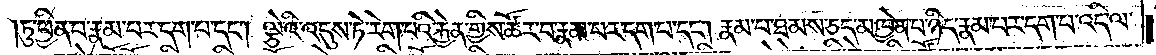ཏུ་ཕྱིན་པ་རྣམ་པར་དག་པ་དང༌། ལྕེའི་འདུས་ཏེ་རེག་པའི་རྐྱེན་གྱིས་ཚོར་བ་རྣམ་པར་དག་པ་དང༌། རྣམ་པ་ཐམས་ཅད་མཁྱེན་པ་ཉིད་རྣམ་པར་དག་པ་འདི་ལ་
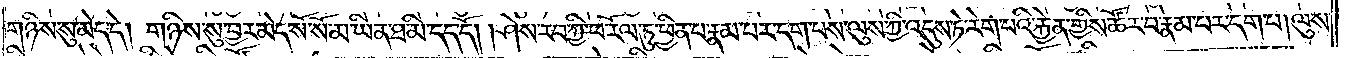གཉིས་སུ་མེད་དེ། གཉིས་སུ་བྱར་མེད་སོ་སོ་མ་ཡིན་ཐ་མི་དད་དོ། །ཤེས་རབ་ཀྱི་ཕ་རོལ་ཏུ་ཕྱིན་པ་རྣམ་པར་དག་པས་ལུས་ཀྱི་འདུས་ཏེ་རེག་པའི་རྐྱེན་གྱིས་ཚོར་བ་རྣམ་པར་དག་པ། ལུས་
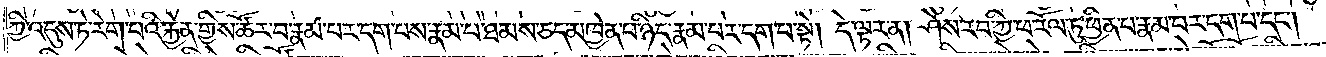ཀྱི་འདུས་ཏེ་རེག་པའི་རྐྱེན་གྱིས་ཚོར་བ་རྣམ་པར་དག་པས་རྣམ་པ་ཐམས་ཅད་མཁྱེན་པ་ཉིད་རྣམ་པར་དག་པ་སྟེ། དེ་ལྟར་ན། ཤེས་རབ་ཀྱི་ཕ་རོལ་ཏུ་ཕྱིན་པ་རྣམ་པར་དག་པ་དང༌།
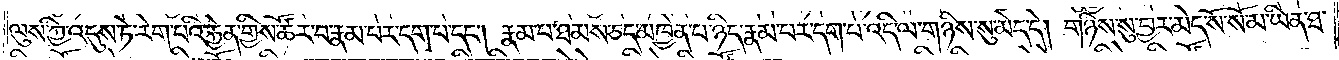ཀྱི་འདུས་ཏེ་རེག་པའི་རྐྱེན་གྱིས་ཚོར་བ་རྣམ་པར་དག་པ་དང༌། རྣམ་པ་ཐམས་ཅད་མཁྱེན་པ་ཉིད་རྣམ་པར་དག་པ་འདི་ལ་གཉིས་སུ་མེད་དེ། གཉིས་སུ་བྱར་མེད་སོ་སོ་མ་ཡིན་ཐ་
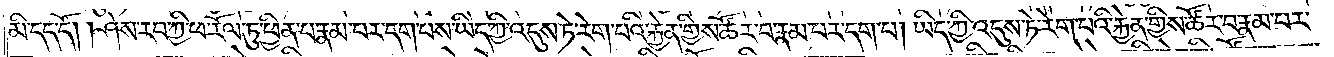མི་དད་དོ། །ཤེས་རབ་ཀྱི་ཕ་རོལ་ཏུ་ཕྱིན་པ་རྣམ་པར་དག་པས་ཡིད་ཀྱི་འདུས་ཏེ་རེག་པའི་རྐྱེན་གྱིས་ཚོར་བ་རྣམ་པར་དག་པ། ཡིད་ཀྱི་འདུས་ཏེ་རེག་པའི་རྐྱེན་གྱིས་ཚོར་བ་རྣམ་པར་
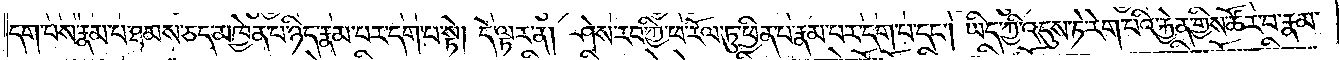དག་པས་རྣམ་པ་ཐམས་ཅད་མཁྱེན་པ་ཉིད་རྣམ་པར་དག་པ་སྟེ། དེ་ལྟར་ན། ཤེས་རབ་ཀྱི་ཕ་རོལ་ཏུ་ཕྱིན་པ་རྣམ་པར་དག་པ་དང༌། ཡིད་ཀྱི་འདུས་ཏེ་རེག་པའི་རྐྱེན་གྱིས་ཚོར་བ་རྣམ་
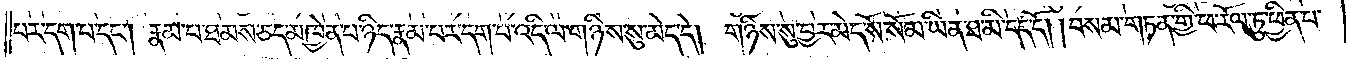པར་དག་པ་དང༌། རྣམ་པ་ཐམས་ཅད་མཁྱེན་པ་ཉིད་རྣམ་པར་དག་པ་འདི་ལ་གཉིས་སུ་མེད་དེ། གཉིས་སུ་བྱར་མེད་སོ་སོ་མ་ཡིན་ཐ་མི་དད་དོ། །བསམ་གཏན་གྱི་ཕ་རོལ་ཏུ་ཕྱིན་པ་
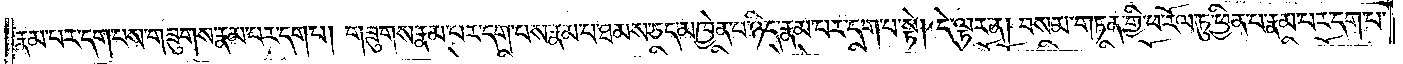རྣམ་པར་དག་པས་གཟུགས་རྣམ་པར་དག་པ། གཟུགས་རྣམ་པར་དག་པས་རྣམ་པ་ཐམས་ཅད་མཁྱེན་པ་ཉིད་རྣམ་པར་དག་པ་སྟེ། དེ་ལྟར་ན། བསམ་གཏན་གྱི་ཕ་རོལ་ཏུ་ཕྱིན་པ་རྣམ་པར་དག་པ་
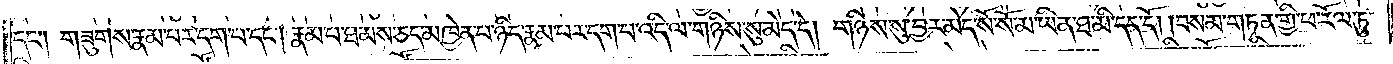དང༌། གཟུགས་རྣམ་པར་དག་པ་དང༌། རྣམ་པ་ཐམས་ཅད་མཁྱེན་པ་ཉིད་རྣམ་པར་དག་པ་འདི་ལ་གཉིས་སུ་མེད་དེ། གཉིས་སུ་བྱར་མེད་སོ་སོ་མ་ཡིན་ཐ་མི་དད་དོ། །བསམ་གཏན་གྱི་ཕ་རོལ་ཏུ་
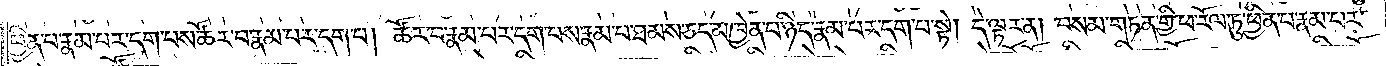ཕྱིན་པ་རྣམ་པར་དག་པས་ཚོར་བ་རྣམ་པར་དག་པ། ཚོར་བ་རྣམ་པར་དག་པས་རྣམ་པ་ཐམས་ཅད་མཁྱེན་པ་ཉིད་རྣམ་པར་དག་པ་སྟེ། དེ་ལྟར་ན། བསམ་གཏན་གྱི་ཕ་རོལ་ཏུ་ཕྱིན་པ་རྣམ་པར་
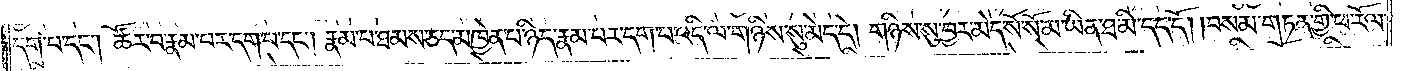དག་པ་དང༌། ཚོར་བ་རྣམ་པར་དག་པ་དང༌། རྣམ་པ་ཐམས་ཅད་མཁྱེན་པ་ཉིད་རྣམ་པར་དག་པ་འདི་ལ་གཉིས་སུ་མེད་དེ། གཉིས་སུ་བྱར་མེད་སོ་སོ་མ་ཡིན་ཐ་མི་དད་དོ། །བསམ་གཏན་གྱི་ཕ་རོལ་
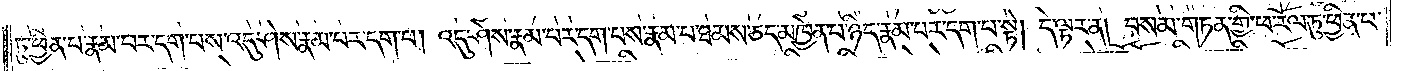ཏུ་ཕྱིན་པ་རྣམ་པར་དག་པས་འདུ་ཤེས་རྣམ་པར་དག་པ། འདུ་ཤེས་རྣམ་པར་དག་པས་རྣམ་པ་ཐམས་ཅད་མཁྱེན་པ་ཉིད་རྣམ་པར་དག་པ་སྟེ། དེ་ལྟར་ན། བསམ་གཏན་གྱི་ཕ་རོལ་ཏུ་ཕྱིན་པ་
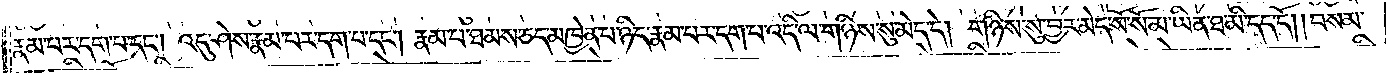རྣམ་པར་དག་པ་དང༌། འདུ་ཤེས་རྣམ་པར་དག་པ་དང༌། རྣམ་པ་ཐམས་ཅད་མཁྱེན་པ་ཉིད་རྣམ་པར་དག་པ་འདི་ལ་གཉིས་སུ་མེད་དེ། གཉིས་སུ་བྱར་མེད་སོ་སོ་མ་ཡིན་ཐ་མི་དད་དོ། །བསམ་
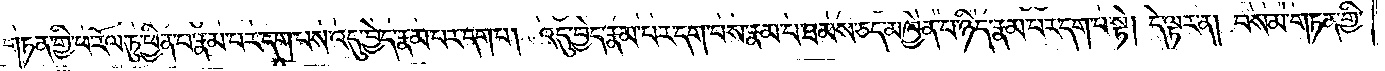གཏན་གྱི་ཕ་རོལ་ཏུ་ཕྱིན་པ་རྣམ་པར་དག་པས་འདུ་བྱེད་རྣམ་པར་དག་པ། འདུ་བྱེད་རྣམ་པར་དག་པས་རྣམ་པ་ཐམས་ཅད་མཁྱེན་པ་ཉིད་རྣམ་པར་དག་པ་སྟེ། དེ་ལྟར་ན། བསམ་གཏན་གྱི་
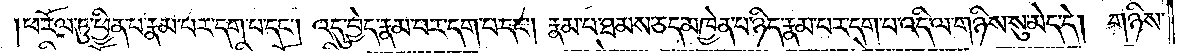ཕ་རོལ་ཏུ་ཕྱིན་པ་རྣམ་པར་དག་པ་དང༌། འདུ་བྱེད་རྣམ་པར་དག་པ་དང༌། རྣམ་པ་ཐམས་ཅད་མཁྱེན་པ་ཉིད་རྣམ་པར་དག་པ་འདི་ལ་གཉིས་སུ་མེད་དེ། གཉིས་
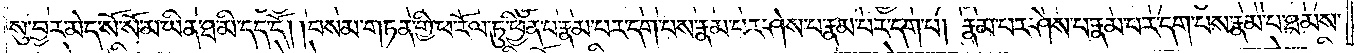སུ་བྱར་མེད་སོ་སོ་མ་ཡིན་ཐ་མི་དད་དོ། །བསམ་གཏན་གྱི་ཕ་རོལ་ཏུ་ཕྱིན་པ་རྣམ་པར་དག་པས་རྣམ་པར་ཤེས་པ་རྣམ་པར་དག་པ། རྣམ་པར་ཤེས་པ་རྣམ་པར་དག་པས་རྣམ་པ་ཐམས་
